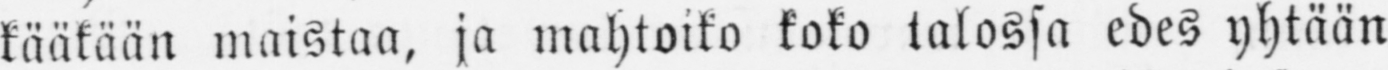kääkään maistaa, ja mahtoiko koko talossa edes yhtään
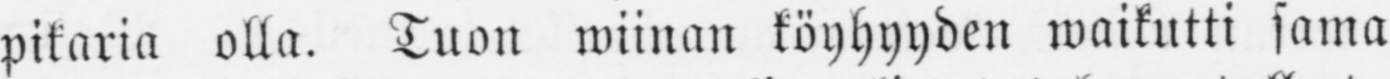pikaria olla. Tuon wiinan köyhyyden waikutti sama
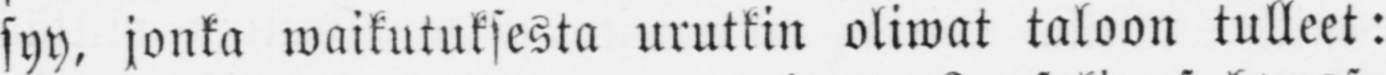syy, jonka waikutuksesta urutkin oliwat taloon tulleet:
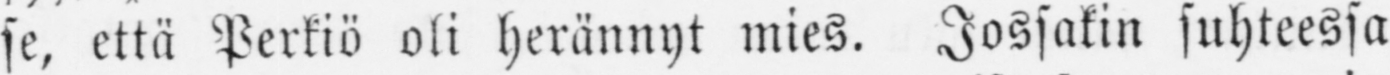se, että Perkiö oli herännyt mies. Jossakin suhteessa
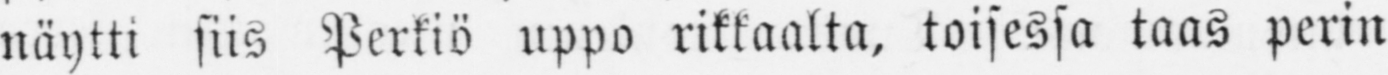näytti siis Perkiö uppo rikkaalta, toisessa taas perin
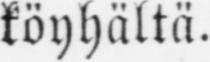köyhältä.
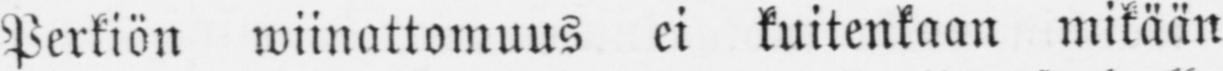Perkiön wiinattomuus ei kuitenkaan mikään
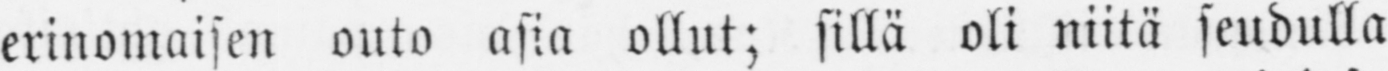erinomaisen outo asia ollut; sillä oli niitä seudulla
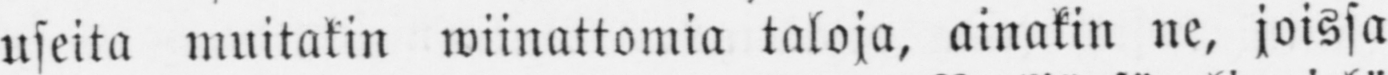useita muitakin wiinattomia taloja, ainakin ne, joissa
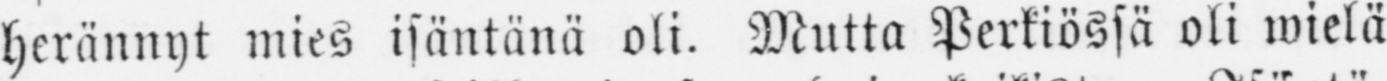herännyt mies isäntänä oli. Mutta Perkiössä oli wielä
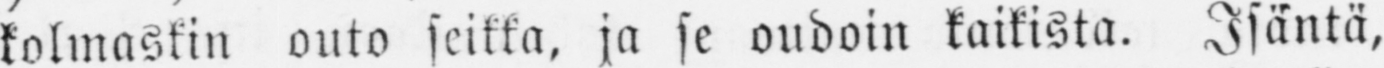kolmaskin outo seikka, ja se oudoin kaikista. Isäntä,
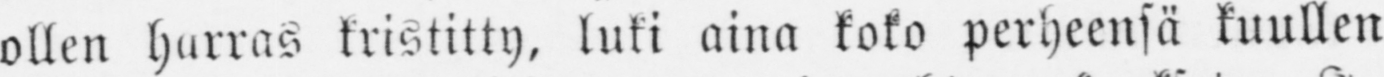ollen harras kristitty, luki aina koko perheensä kuullen
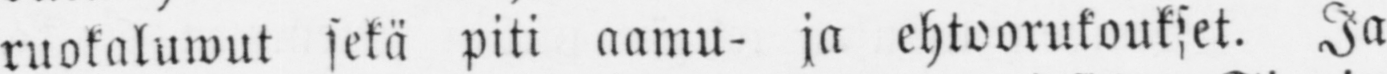ruokaluwut sekä piti aamu- ja ehtoorukoukset. Ja
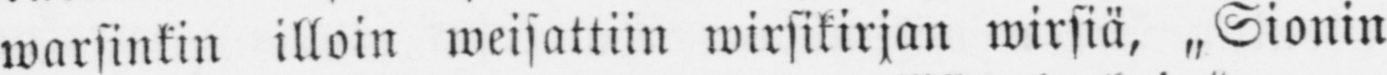warsinkin illoin weisattiin wirsikirjan wirsiä, „Sionin
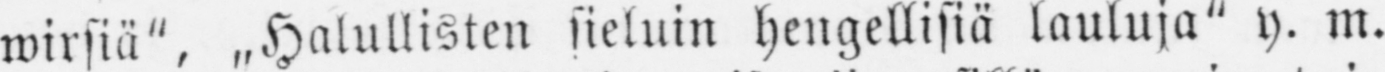wirsiä", „Halullisten sieluin hengellisiä y. m.
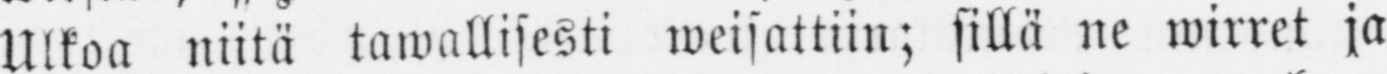Ulkoa niitä tawallisesti weisattiin; sillä ne wirret ja
